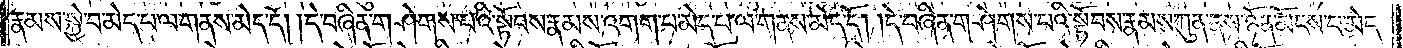རྣམས་སྐྱེ་བ་མེད་པ་ལ་གནས་མེད་དོ། །དེ་བཞིན་གཤེགས་པའི་སྟོབས་རྣམས་འགག་པ་མེད་པ་ལ་གནས་མེད་དོ། །དེ་བཞིན་གཤེགས་པའི་སྟོབས་རྣམས་ཀུན་ནས་ཉོན་མོངས་པ་མེད་
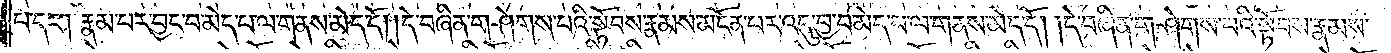པ་དང༌། རྣམ་པར་བྱང་བ་མེད་པ་ལ་གནས་མེད་དོ། །དེ་བཞིན་གཤེགས་པའི་སྟོབས་རྣམས་མངོན་པར་འདུ་བྱ་བ་མེད་པ་ལ་གནས་མེད་དོ། །དེ་བཞིན་གཤེགས་པའི་སྟོབས་རྣམས་
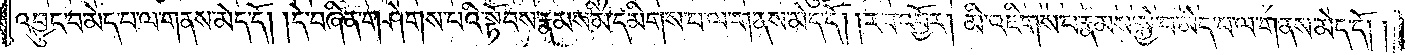འབྱུང་བ་མེད་པ་ལ་གནས་མེད་དོ། །དེ་བཞིན་གཤེགས་པའི་སྟོབས་རྣམས་མི་དམིགས་པ་ལ་གནས་མེད་དོ། །རབ་འབྱོར། མི་འཇིགས་པ་རྣམས་སྐྱེ་བ་མེད་པ་ལ་གནས་མེད་དོ། །
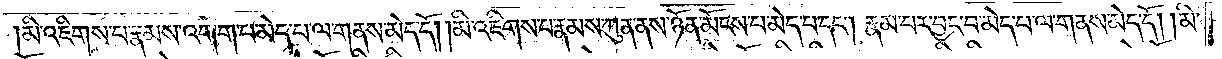མི་འཇིགས་པ་རྣམས་འགག་པ་མེད་པ་ལ་གནས་མེད་དོ། །མི་འཇིགས་པ་རྣམས་ཀུན་ནས་ཉོན་མོངས་པ་མེད་པ་དང༌། རྣམ་པར་བྱང་བ་མེད་པ་ལ་གནས་མེད་དོ། །མི་
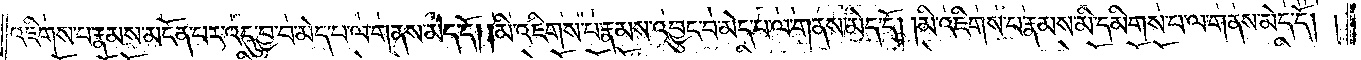འཇིགས་པ་རྣམས་མངོན་པར་འདུ་བྱ་བ་མེད་པ་ལ་གནས་མེད་དོ། །མི་འཇིགས་པ་རྣམས་འབྱུང་བ་མེད་པ་ལ་གནས་མེད་དོ། །མི་འཇིགས་པ་རྣམས་མི་དམིགས་པ་ལ་གནས་མེད་དོ། །
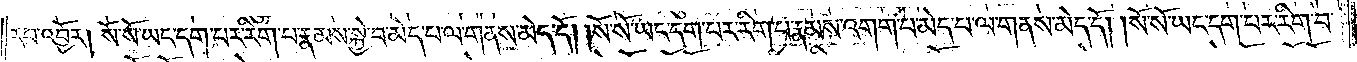རབ་འབྱོར། སོ་སོ་ཡང་དག་པར་རིག་པ་རྣམས་སྐྱེ་བ་མེད་པ་ལ་གནས་མེད་དོ། །སོ་སོ་ཡང་དག་པར་རིག་པ་རྣམས་འགག་པ་མེད་པ་ལ་གནས་མེད་དོ། །སོ་སོ་ཡང་དག་པར་རིག་པ་
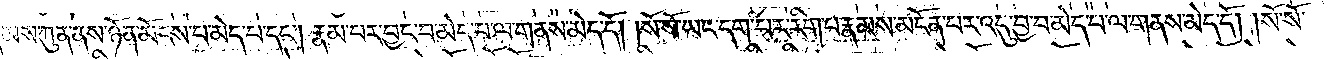རྣམས་ཀུན་ནས་ཉོན་མོངས་པ་མེད་པ་དང༌། རྣམ་པར་བྱང་བ་མེད་པ་ལ་གནས་མེད་དོ། །སོ་སོ་ཡང་དག་པར་རིག་པ་རྣམས་མངོན་པར་འདུ་བྱ་བ་མེད་པ་ལ་གནས་མེད་དོ། །སོ་སོ་
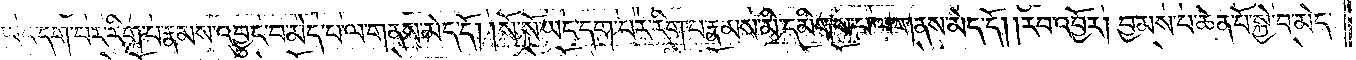ཡང་དག་པར་རིག་པ་རྣམས་འབྱུང་བ་མེད་པ་ལ་གནས་མེད་དོ། །སོ་སོ་ཡང་དག་པར་རིག་པ་རྣམས་མི་དམིགས་པ་ལ་གནས་མེད་དོ། །རབ་འབྱོར། བྱམས་པ་ཆེན་པོ་སྐྱེ་བ་མེད་
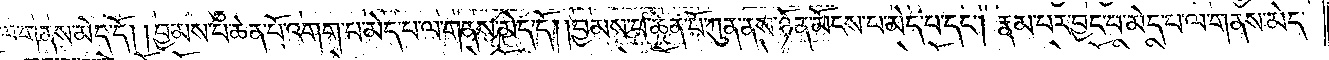པ་ལ་གནས་མེད་དོ། །བྱམས་པ་ཆེན་པོ་འགག་པ་མེད་པ་ལ་གནས་མེད་དོ། །བྱམས་པ་ཆེན་པོ་ཀུན་ནས་ཉོན་མོངས་པ་མེད་པ་དང༌། རྣམ་པར་བྱང་བ་མེད་པ་ལ་གནས་མེད་
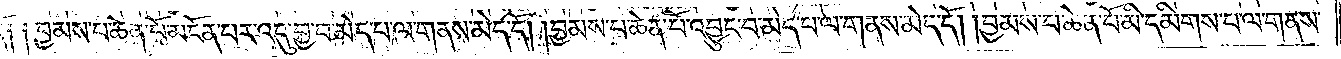དོ། །བྱམས་པ་ཆེན་པོ་མངོན་པར་འདུ་བྱ་བ་མེད་པ་ལ་གནས་མེད་དོ། །བྱམས་པ་ཆེན་པོ་འབྱུང་བ་མེད་པ་ལ་གནས་མེད་དོ། །བྱམས་པ་ཆེན་པོ་མི་དམིགས་པ་ལ་གནས་
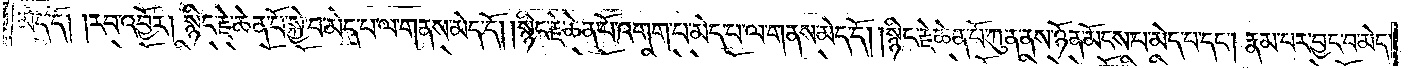མེད་དོ། །རབ་འབྱོར། སྙིང་རྗེ་ཆེན་པོ་སྐྱེ་བ་མེད་པ་ལ་གནས་མེད་དོ། །སྙིང་རྗེ་ཆེན་པོ་འགག་པ་མེད་པ་ལ་གནས་མེད་དོ། །སྙིང་རྗེ་ཆེན་པོ་ཀུན་ནས་ཉོན་མོངས་པ་མེད་པ་དང༌། རྣམ་པར་བྱང་བ་མེད་
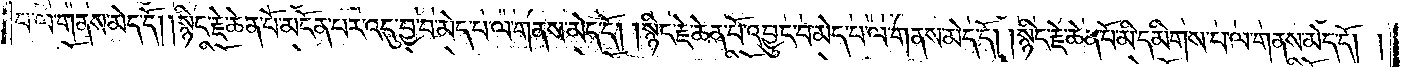པ་ལ་གནས་མེད་དོ། །སྙིང་རྗེ་ཆེན་པོ་མངོན་པར་འདུ་བྱ་བ་མེད་པ་ལ་གནས་མེད་དོ། །སྙིང་རྗེ་ཆེན་པོ་འབྱུང་བ་མེད་པ་ལ་གནས་མེད་དོ། །སྙིང་རྗེ་ཆེན་པོ་མི་དམིགས་པ་ལ་གནས་མེད་དོ། །
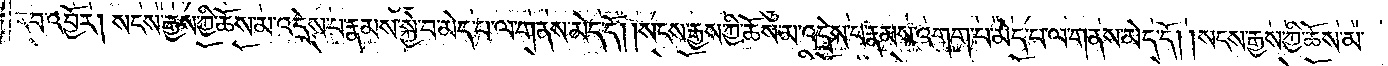རབ་འབྱོར། སངས་རྒྱས་ཀྱི་ཆོས་མ་འདྲེས་པ་རྣམས་སྐྱེ་བ་མེད་པ་ལ་གནས་མེད་དོ། །སངས་རྒྱས་ཀྱི་ཆོས་མ་འདྲེས་པ་རྣམས་འགག་པ་མེད་པ་ལ་གནས་མེད་དོ། །སངས་རྒྱས་ཀྱི་ཆོས་མ་
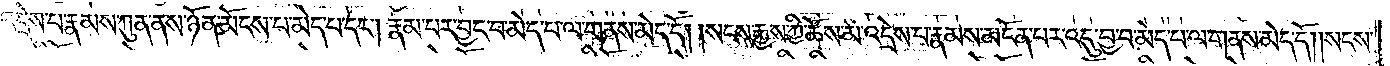འདྲེས་པ་རྣམས་ཀུན་ནས་ཉོན་མོངས་པ་མེད་པ་དང༌། རྣམ་པར་བྱང་བ་མེད་པ་ལ་གནས་མེད་དོ། །སངས་རྒྱས་ཀྱི་ཆོས་མ་འདྲེས་པ་རྣམས་མངོན་པར་འདུ་བྱ་བ་མེད་པ་ལ་གནས་མེད་དོ། །སངས་
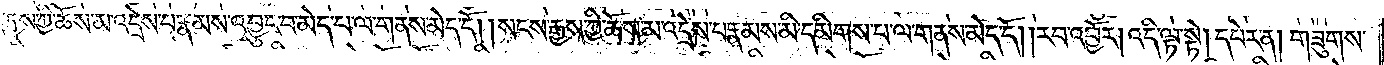རྒྱས་ཀྱི་ཆོས་མ་འདྲེས་པ་རྣམས་འབྱུང་བ་མེད་པ་ལ་གནས་མེད་དོ། །སངས་རྒྱས་ཀྱི་ཆོས་མ་འདྲེས་པ་རྣམས་མི་དམིགས་པ་ལ་གནས་མེད་དོ། །རབ་འབྱོར། འདི་ལྟ་སྟེ། དཔེར་ན། གཟུགས་
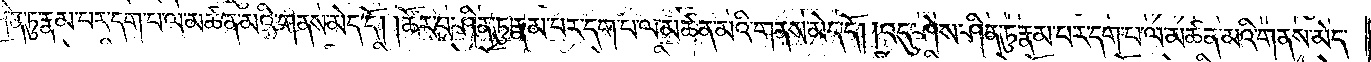ཤིན་ཏུ་རྣམ་པར་དག་པ་ལ་མཚན་མའི་གནས་མེད་དོ། །ཚོར་བ་ཤིན་ཏུ་རྣམ་པར་དག་པ་ལ་མཚན་མའི་གནས་མེད་དོ། །འདུ་ཤེས་ཤིན་ཏུ་རྣམ་པར་དག་པ་ལ་མཚན་མའི་གནས་མེད་
